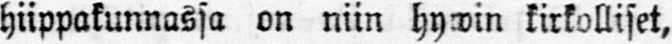hiippakunnassa on niin hywin kirkolliset,
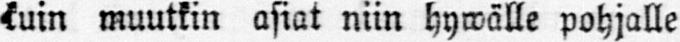kuin muutkin asiat niin hywälle pohjalle
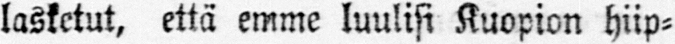lasketut, että emme luulisi Kuopion hiip-
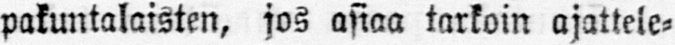pakuntalaisten, jos asiaa tarkoin ajattele-
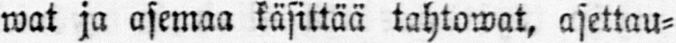wat ja asemaa käsittää tahtowat, asettau-
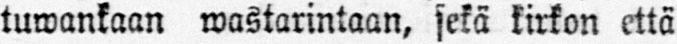tuwankaan wastarintaan, sekä kirkon että
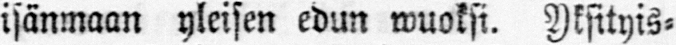isänmaan yleisen edun wuoksi. Yksityis-
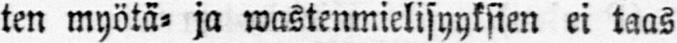ten myötä- ja wastenmielisyyksien ei taas
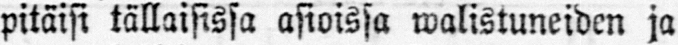pitäisi tällaisissa asioissa walistuneiden ja
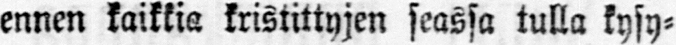ennen kaikkia kristittyjen seassa tulla kysy-
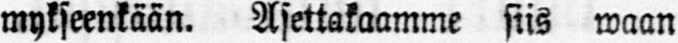mykseenkään. Asettakaamme siis waan
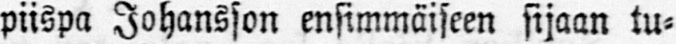piispa Johansson ensimmäiseen sijaan tu-
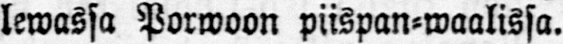lewassa Porwoon piispan-waalissa.
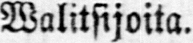Walitsijoita.
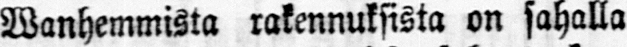Wanhemmista rakennuksista on sahalla
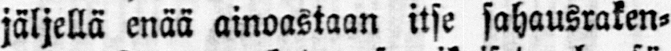jäljellä enää ainoastaan itse sahausraken-
